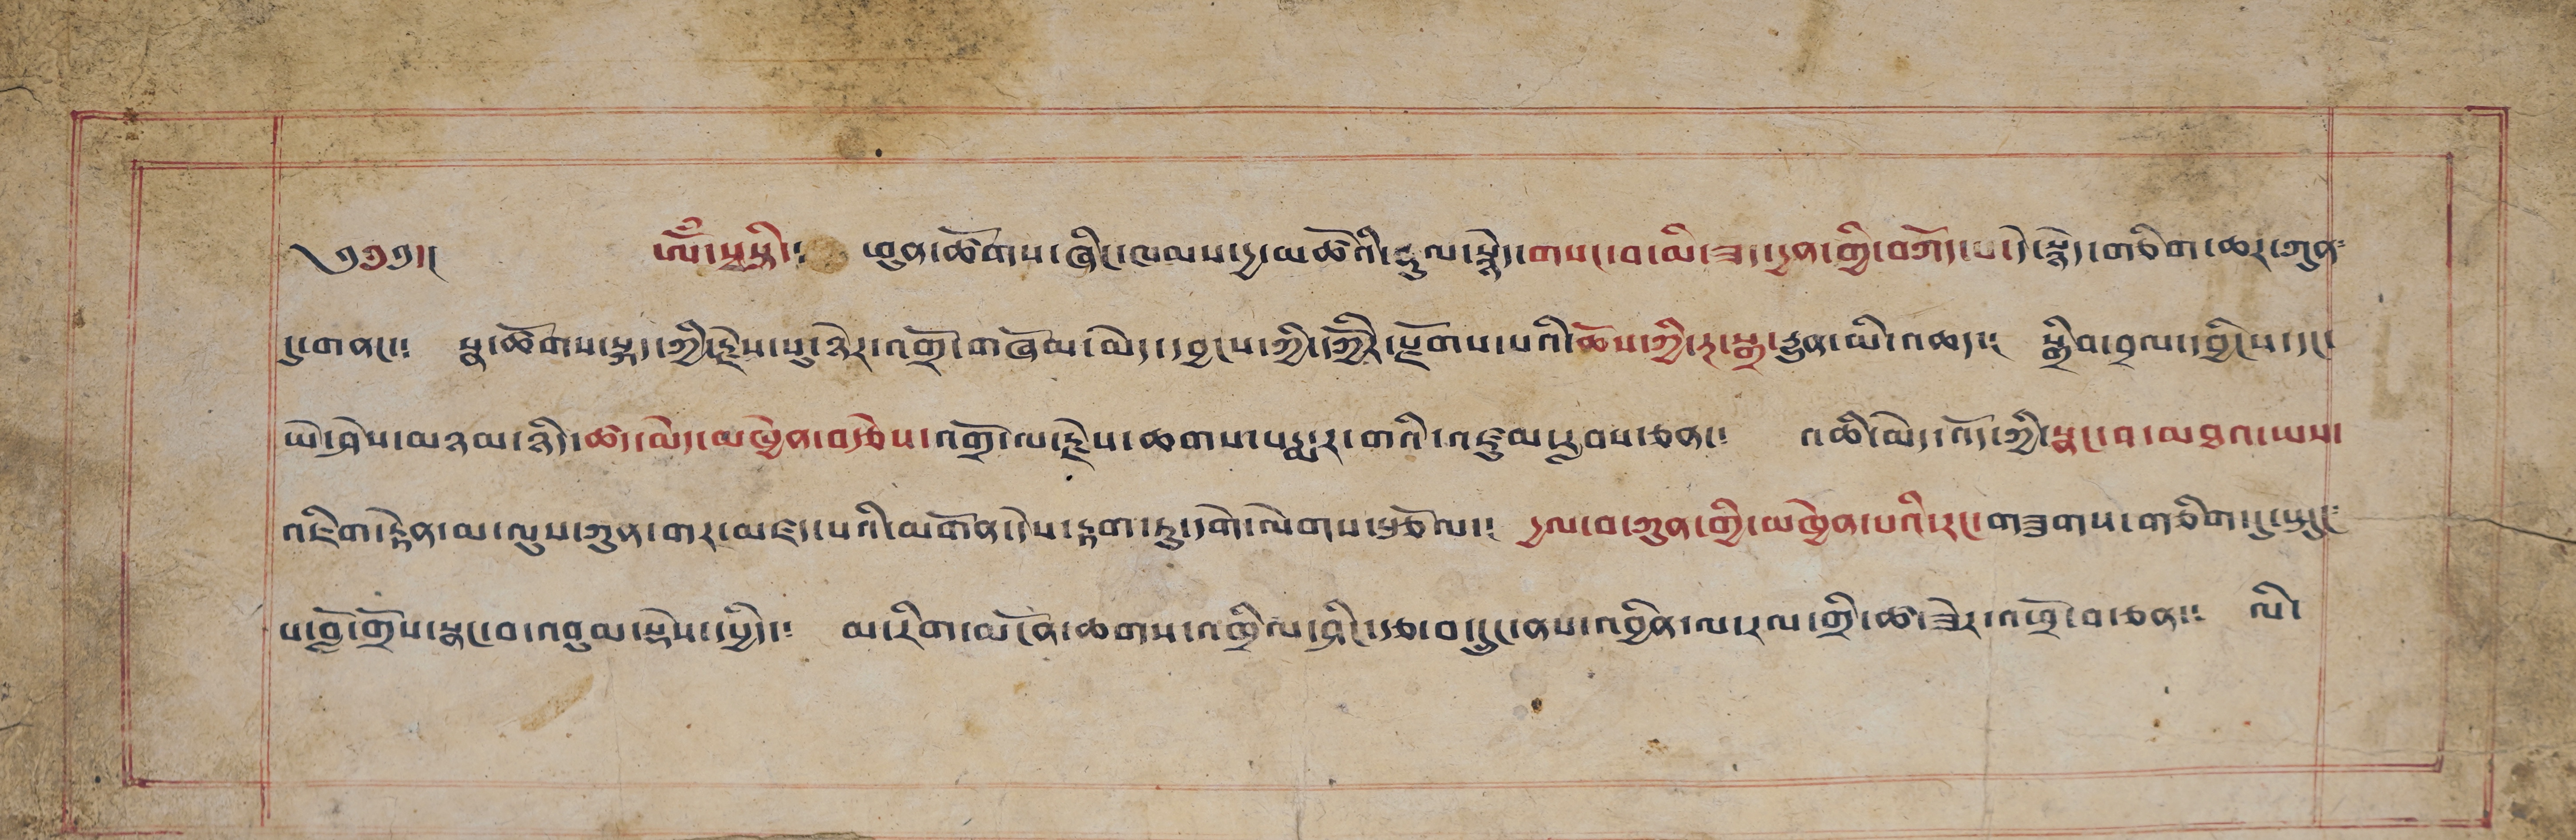༄༅༅།། ཨོཾ་སྭསྟི་༴ ཕུན་ཚོགས་ཞིང་ཁམས་དྱ་མཚོའི་རྡུལ་སྙེད་གསང་བ་མི་ཟད་དྱན་གྱི་བཀོད་པ་དེ་སྙེད་གཅིག་ཆར་ཀུན༴
དུ་གནང་༴ སྣ་ཚོགས་སྐད་ཀྱི་རྗེས་སུ་ཉེར་འགྲོ་གཞོམ་མེད་དབྱངས་ཀྱི་དཀྱོརི་རྫོགས་པའི་ཆོས་ཀྱི་རྔ་སྒྲ་རྒྱུན་མི་འཆད་༴ སྒྲིབ་བྲལ་དབྱིངས་དང་
ཡེ་ཤེས་མཉམ་ཉིད་ཚད་མེད་མཁྱེན་བརྩེས་འགྲོ་ལ་རྗེས་ཆགས་པདྨ་ར་གའི་འཛུམ་རླབས་ཅན་༴ འཆི་མེད་འོད་ཀྱི་སྣང་བ་མཐའ་ཡས་
འཇིག་རྟེན་མ་ལུས་ཀུན་གར་མཛད་པའི་མགོན་དེས་རྟག་ཏུ་དགེ་ལེགས་རྩོལ་༴ དྱལ་བ་ཀུན་གྱི་མཁྱེན་པའི་རང་གཟུགས་གཅིག་དུ་སྤུང༴
པ་བློ་གྲོས་སྣང་བ་འབུམ་སྡེས་དཔྱིད་༴ མ་རིག་མངོན་ཆགས་འཁྲིལ་ཤིང་རྩ་བ་དྲུང་ནས་འབྱིན་ལ་རལ་གྲི་ཚ་ཟེར་འཕྲོ་བ་ཅན་༴ ལི་
